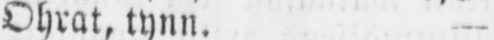Ohrat, tynn. —
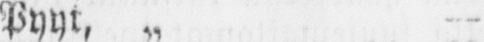Pyyt, „ —
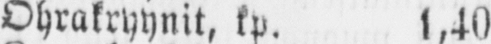Ohrakryynit, kp. 1,40
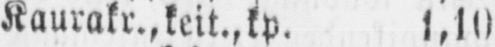Kaurakr., keit., kp. 1,10
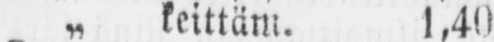„ keittäm. 1,40
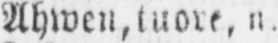Ahwen, tuore, n. 20-25
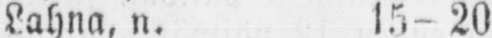Lahna, n. 15-20
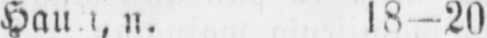Haun n. 18-20
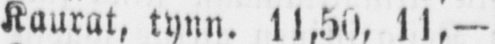Kaurat, tynn. 11,50, 11, —
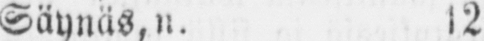Säynäs, n. 12
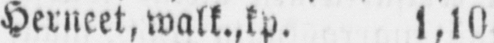Herneet, walk. kp. 1,100
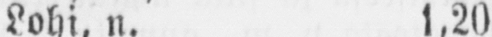Lohi, n. 1,20
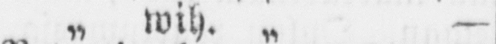„ wih. „ —
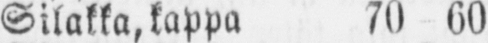Silakka, kappa 70 - 60
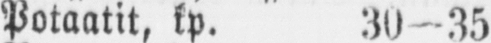Potaatit, lp. W-Z5
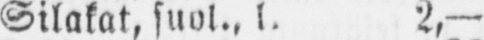Silakat, suol., l. 2,—
